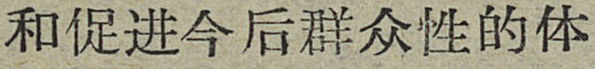和促进今后群众性的体
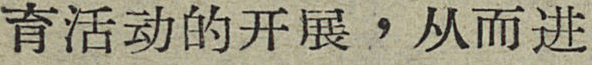育活动的开展，从而进
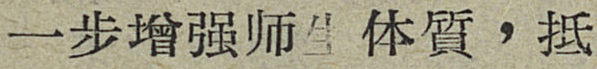一步增强师生体質，抵
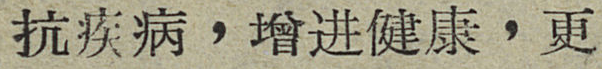抗疾病，增进健康，更
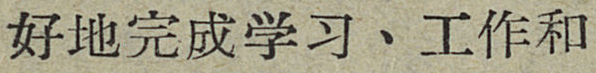好地完成学习、工作和
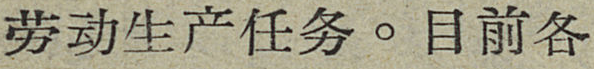劳动生产任务。目前各
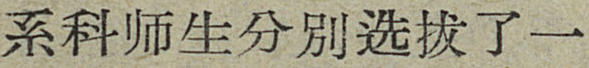系科师生分别选拔了一
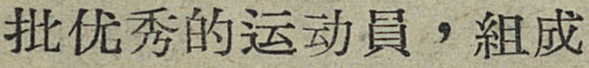批优秀的运动員，組成
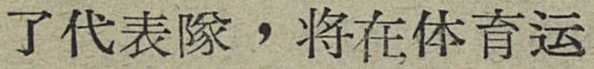了代表隊，将在体育运
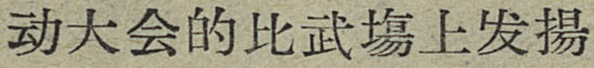动大会的比武塲上发揚
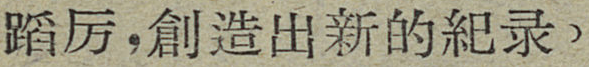蹈厉，創造出新的紀录。
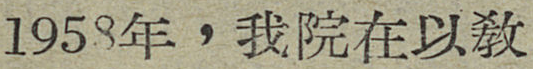1958年，我院在以敎
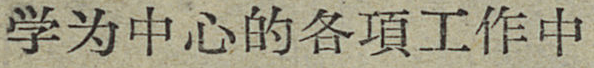学为中心的各項工作中
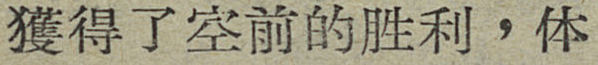獲得了空前地胜利，体
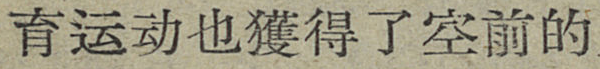育运动也獲得了空前的
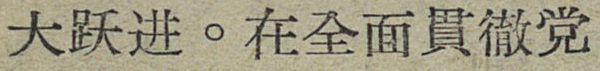大跃进。在全面貫徹党
